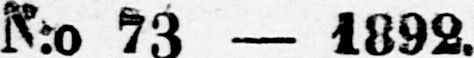N:o 73 — 1892
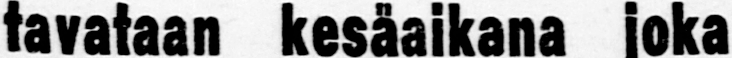Hammaslääkäri
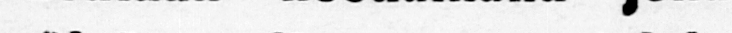Alfred Hacksell
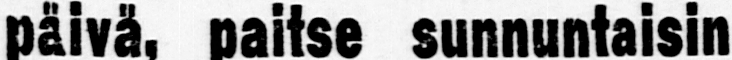tawataan kesäaikana joka
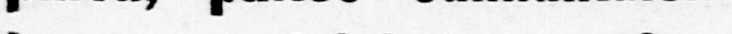päivä, paitse sunnuntaisin
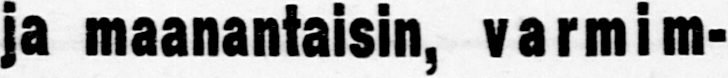ja maanantaisin, varmim-
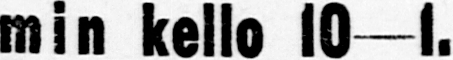min kello 10-1.
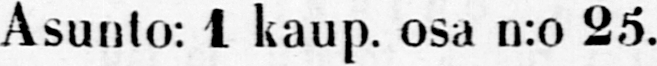Asunto: 1 kaup. osa n:o 25.
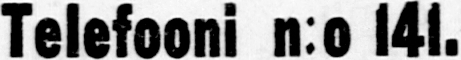Telefooni n:o 14l.
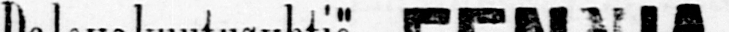Suomalainen
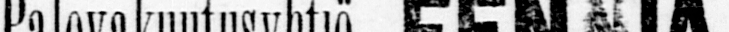Palovakuutusyhtiö FENNIA.
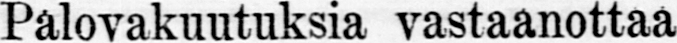Palovakuutuksia vastaanottaa
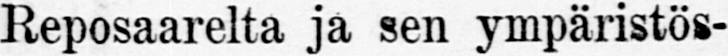Reposaarelta ja sen ympäristös-
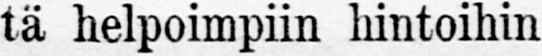tä helpoimpiin hintoihin
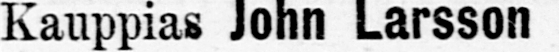Kauppias John Larsson
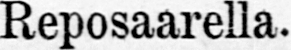Reposaarella.
